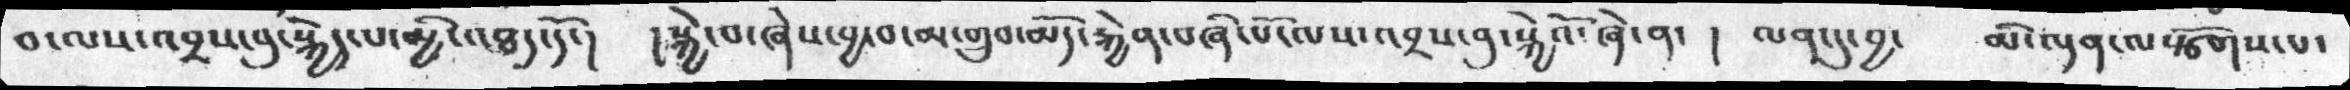བ་ལས་འབྲས་བུ་སྐྱེད་པ་མྱི་འཐད་དོ་།  །སྐྱེ་བ་ཞེས་བྱ་བ་མ་གྲུབ་མོད་རྐྱེན་བཞི་པོ་ལས་འབྲས་བུ་སྐྱེའོ་ཞེ་ན་ ། ལན་དུ་བྱ་   མི་ལྡན་ལསྩོགས་པ་
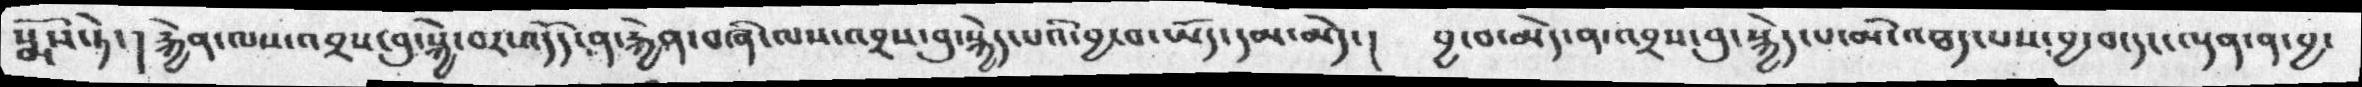སྨོས་ཏེ་། རྐྱེན་ལས་འབྲས་བུ་སྐྱེ་བར་འདོད་ན་རྐྱེན་བཞི་ལས་འབྲས་བུ་སྐྱེད་པའི་བྱ་བ་ཡོད་དམ་མེད་།  བྱ་བ་མེད་ན་འབྲས་བུ་སྐྱེད་པ་མི་འཐད་པས་བྱ་བ་དང་ལྡན་ན་བྱ་
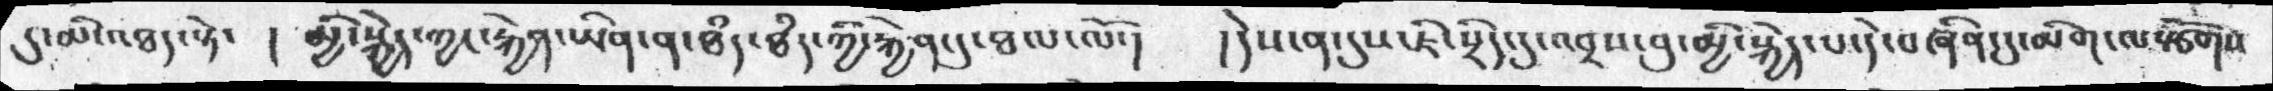དུ་མི་འཐད་སྟེ་  ། མྱི་སྐྱེད་ཀྱང་རྐྱེན་ཡིན་ཐཾད་ཐཾད་ཀྱི་རྐྱེན་དུ་ཐལ་ལོ་།  །དེས་ན་དུས་ཇི་སྲིད་དུ་འབྲས་བུ་མྱི་སྐྱེད་པ་དེ་བཞིན་དུ་མིག་ལ་སྩོགས
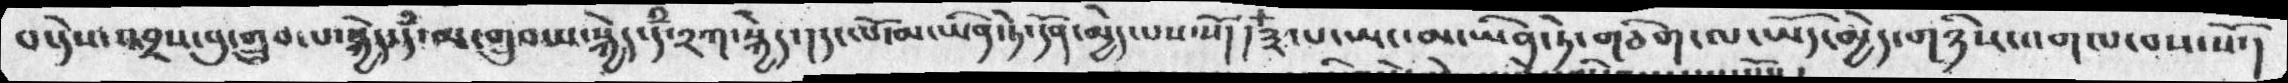པ་དེས་འབྲས་བུ་གྲུབ་པ་སྐྱེད་དཾ་མ་གྲུབ་པ་སྐྱེད་དཾ་༢ཀ་སྐྱེད་དང་པོ་མ་ཡིན་ཏེ་དོན་མྱེད་པས་སོ། །༣་པ་ཡང་མ་ཡིན་ཏེ་གཅིག་ལ་ཡོད་མྱེད་གཉིས་འགལ་བས་སོ་།
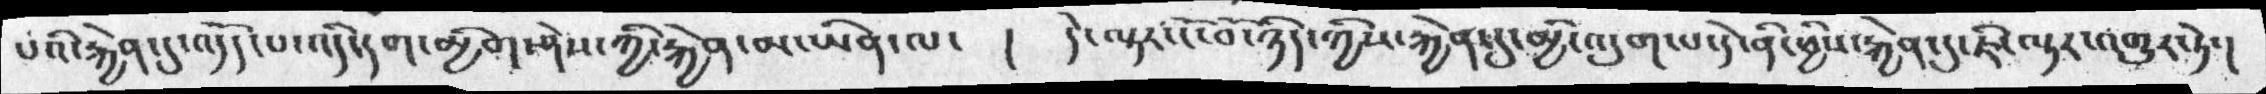པའི་རྐྱེན་དུ་འདོད་པ་འདི་དག་མྱིག་ཤེས་ཀྱི་རྐྱེན་མ་ཡིན་ལ་  །  དེ་ལྟར་ངོ་བོ་ཉིད་ཀྱིས་རྐྱེན་དུ་མྱི་འདུག་པ་དེ་ནི་ཕྱིས་རྐྱེན་དུ་ཇི་ལྟར་འགྱུར་ཏེ་།
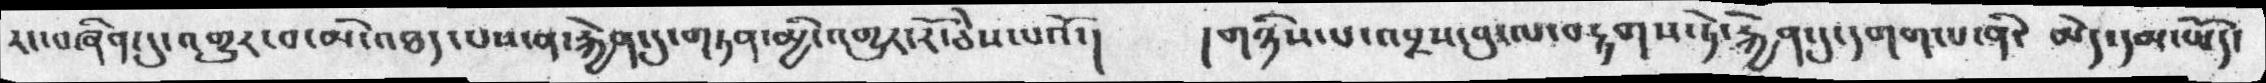རང་བཞིན་དུ་འགྱུར་བ་མི་འཐད་པས་ན་རྐྱེན་དུ་གཏན་མྱི་འགྱུར་རོ་ཅེས་པའོ་།   །གཉིས་པ་འབྲས་བུ་ལ་བརྟགས་ཏེ་རྐྱེན་དུ་དགག་པ་ནི་ མེད་དམ་ཡོད་
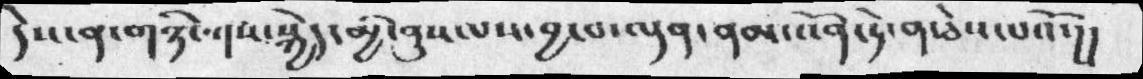དེས་ན་གཉི་ཀས་སྐྱེད་མྱི་ནུས་པས་བྱ་བ་ལྡན་ནམ་འོན་ཏེ་ན་ཅེས་པའོ་།།
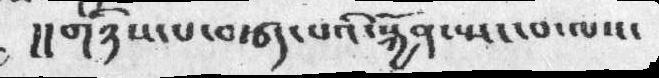།།གཉིས་པ་བརྩད་པའི་སྐྱོན་སྤང་བ་ལས་
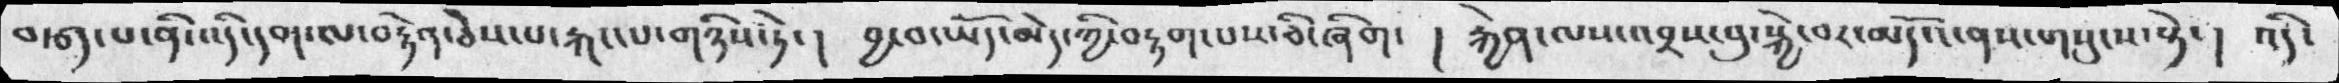བརྩད་པ་ནི་འདི་དག་ལ་བརྟེན་ཅེས་པ་རྐང་པ་གཉིས་ཏེ་།  བྱ་བ་ཡོད་མེད་ཀྱི་བརྟག་པས་ཅི་ཞིག་ ། རྐྱེན་ལས་འབྲས་བུ་སྐྱེ་བར་མདོའ་ནས་གསུངས་སྟེ་། འདི་
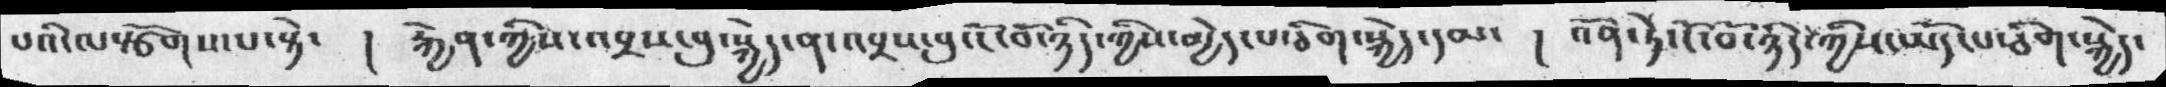པའི་ལསྩོགས་པ་སྟེ་  ། རྐྱེན་ཀྱིས་འབྲས་བུ་སྐྱེད་ན་འབྲས་བུ་ངོ་བོ་ཉིད་ཀྱིས་མྱེད་པ་ཅིག་སྐྱེད་དམ་  ། འོན་ཏེ་ངོ་བོ་ཉིད་ཀྱིས་ཡོད་པ་ཅིག་སྐྱེད་
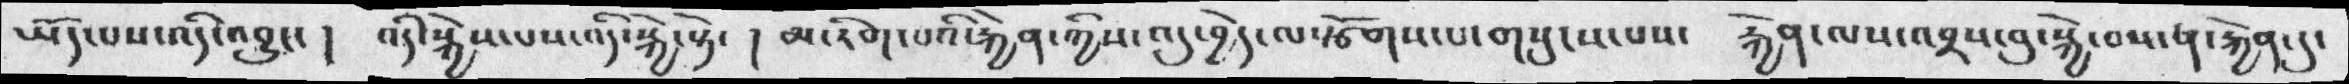ཡོད་པས་འདི་འབྱུང་ ། འདི་སྐྱེས་པས་འདི་སྐྱེ་སྟེ་ ། མ་རིག་པའི་རྐྱེན་ཀྱིས་འདུ་བྱེད་ལ་སྩོགས་པ་གསུངས་པས་  རྐྱེན་ལས་འབྲས་བུ་སྐྱེ་བས་ན་རྐྱེན་དུ་
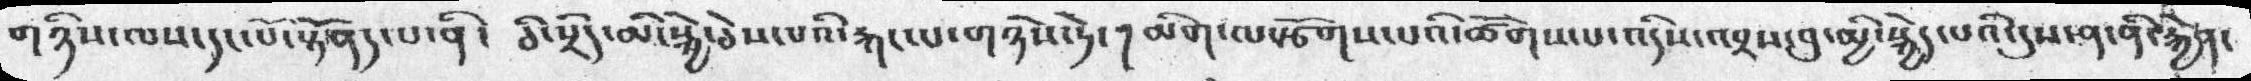གཉིས་ལས་དང་པོ་སྟོནད་པ་ནི་ ཅི་སྲིད་མི་སྐྱེ་ཅེས་པའི་རྐང་པ་གཉིས་ཏེ་། མིག་པ་སྩོགས་པའི་ཚོགས་པ་འདིས་འབྲས་བུ་མྱི་སྐྱེད་པའི་དུས་ན་ནི་རྐྱེན་
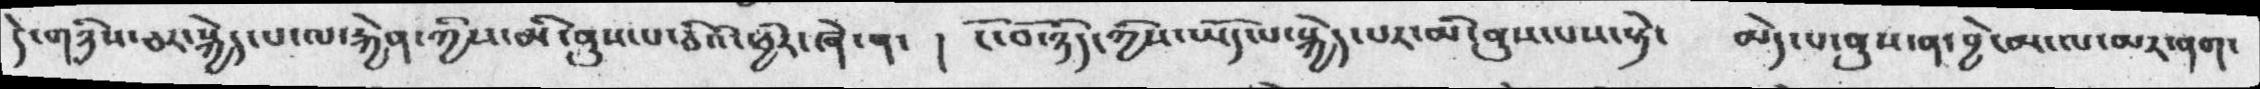དེ་གཉིས་ཅར་སྐྱེད་པ་ལ་རྐྱེན་ཀྱིས་མི་ནུས་པ་ཅིའོ་ཕྱིར་ཞེ་ན་ ། ངོ་བོ་ཉིད་ཀྱིས་ཡོད་པ་སྐྱེད་པར་མི་ནུས་པས་སྟེ་  མེད་པ་ནུས་ན་བྱེད་མ་ལ་མར་ནག་
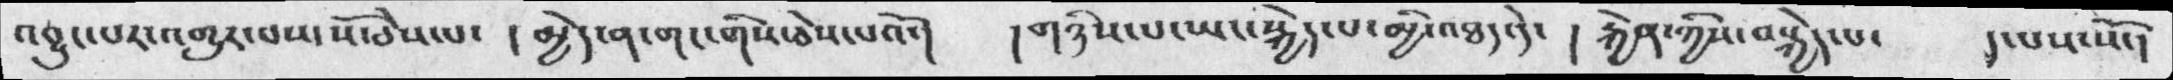འབྱུང་པར་འགྱུར་བས་སོ་ཅེས་པ་ ། མྱེད་ན་གང་གིས་ཅེས་པའོ་། །གཉིས་པ་ཡང་སྐྱེད་པ་མྱི་འཐད་དེ་ ། རྐྱེན་ཀྱིས་བསྐྱེད་པ་   །་པས་སོ་།
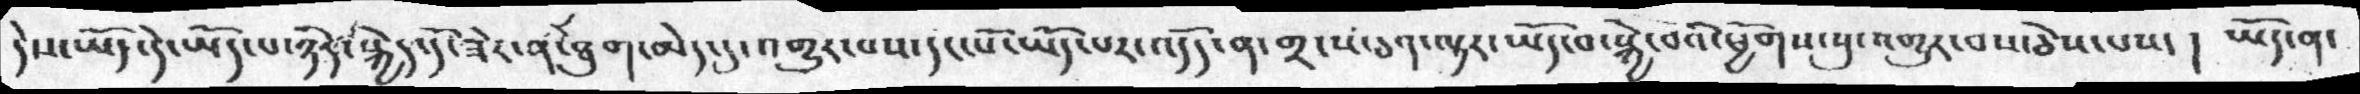དེས་ཡོད་དེ་ཡོད་པ་ཉིད་སྐྱེད་དོ་ཟེར་ན་ཐུག་མེད་དུ་འགྱུར་བས་དང་པོ་ཡོད་པར་འདོད་ན་གྲངས་ཅན་ལྟར་ཡོད་བ་སྐྱེ་བའི་ཕྱོགས་སུ་འགྱུར་བས་ཅེས་པས་། ཡོད་ན་
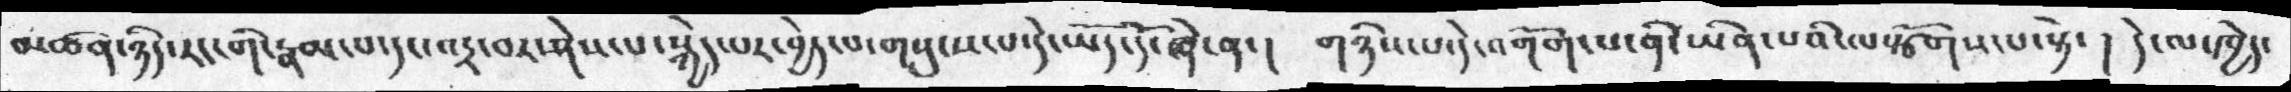མཚན་ཉིད་རང་གི་རྣམ་པ་དང་འདྲ་བར་ཤེས་པ་སྐྱེད་པར་བྱེད་པ་གསུངས་པ་དེ་ཡོད་དོ་ཞེ་ན་།  གཉིས་པ་དེ་འགོག་པ་ནི་ཡིན་པའི་ལསྩོགས་པ་སྟེ་། དེ་ལ་ཁྱེད་
